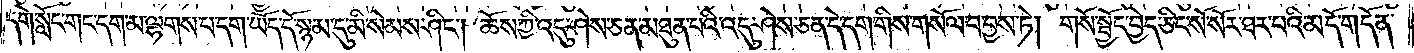དགེ་སློང་གང་དག་མ་ལྷགས་པ་དག་ཡོད་དོ་སྙམ་དུ་མི་སེམས་ཤིང༌། ཆོས་ཀྱི་འདུ་ཤེས་ཅན་མཐུན་པའི་འདུ་ཤེས་ཅན་དེ་དག་གིས་གསོལ་བ་བྱས་ཏེ། གསོ་སྦྱོང་བྱེད་ཅིང་སོ་སོར་ཐར་པའི་མདོ་གདོན་
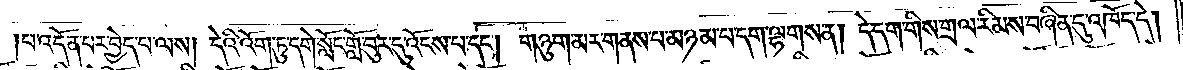པ་འདོན་པར་བྱེད་པ་ལས། དེའི་འོག་ཏུ་དགེ་སློང་གློ་བུར་དུ་འོངས་པ་དང༌། གཉུག་མར་གནས་པ་མཉམ་པ་དག་ལྷགས་ན། དེ་དག་གིས་གྲལ་རིམས་བཞིན་དུ་འཁོད་དེ།
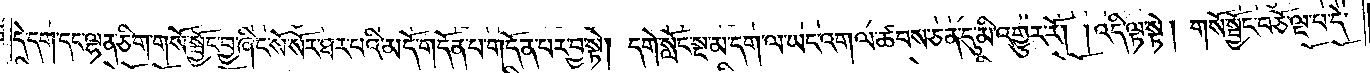དེ་དག་དང་ལྷན་ཅིག་གསོ་སྦྱོང་བྱ་ཞིང་སོ་སོར་ཐར་པའི་མདོ་གདོན་པ་གདོན་པར་བྱ་སྟེ། དགེ་སློང་སྔ་མ་དག་ལ་ཡང་འགལ་ཚབས་ཅན་དུ་མི་འགྱུར་རོ། ། འདི་ལྟ་སྟེ། གསོ་སྦྱོང་བཅོ་ལྔ་པ་དེ་
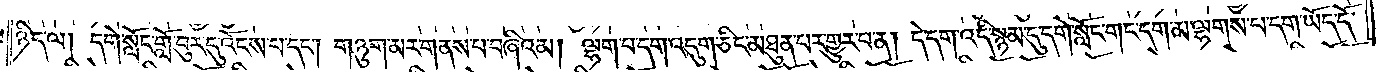ཉིད་ལ། དགེ་སློང་གློ་བུར་དུ་འོངས་པ་དང༌། གཉུག་མར་གནས་པ་བཞིའམ། ལྷག་པ་དག་འདུག་ཅིང་མཐུན་པར་གྱུར་པ་ན། དེ་དག་འདི་སྙམ་དུ་དགེ་སློང་གང་དག་མ་ལྷགས་པ་དག་ཡོད་དོ་
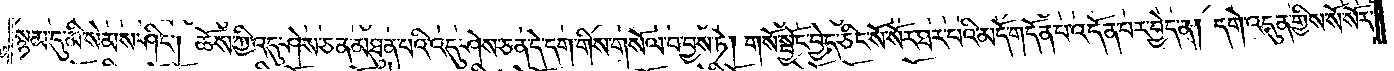སྙམ་དུ་མི་སེམས་ཤིང༌། ཆོས་ཀྱི་འདུ་ཤེས་ཅན་མཐུན་པའི་འདུ་ཤེས་ཅན་དེ་དག་གིས་གསོལ་བ་བྱས་ཏེ། གསོ་སྦྱོང་བྱེད་ཅིང་སོ་སོར་ཐར་པའི་མདོ་གདོན་པ་འདོན་པར་བྱེད་ན། དགེ་འདུན་གྱིས་སོ་སོར་
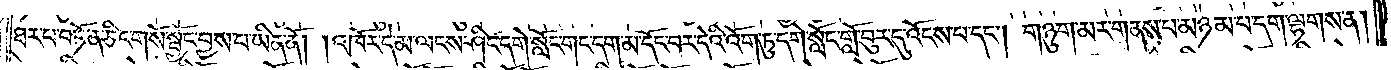ཐར་པ་བཏོན་ཅིང་གསོ་སྦྱོང་བྱས་པ་ཡིན་ནོ། །འཁོར་དེ་མ་ལངས་ཤིང་དགེ་སློང་གང་དག་མ་དོང་བར་དེའི་འོག་ཏུ་དགེ་སློང་གློ་བུར་དུ་འོངས་པ་དང༌། གཉུག་མར་གནས་པ་མཉམ་པ་དག་ལྷགས་ན།
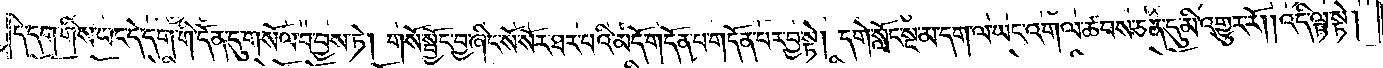དེ་དག་གིས་ཡང་དེ་དག་གི་དོན་དུ་གསོལ་བ་བྱས་ཏེ། གསོ་སྦྱོང་བྱ་ཞིང་སོ་སོར་ཐར་པའི་མདོ་གདོན་པ་གདོན་པར་བྱ་སྟེ། དགེ་སློང་སྔ་མ་དག་ལ་ཡང་འགལ་ཆབས་ཅན་དུ་མི་འགྱུར་རོ། །འདི་ལྟ་སྟེ།
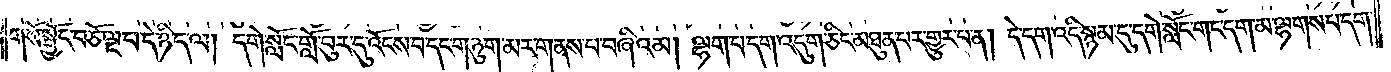གསོ་སྦྱོང་བཅོ་ལྔ་པ་དེ་ཉིད་ལ། དགེ་སློང་གློ་བུར་དུ་འོངས་བ་དང་གཉུག་མར་གནས་པ་བཞིའམ། ལྷག་པ་དག་འདུག་ཅིང་མཐུན་པར་གྱུར་པ་ན། དེ་དག་འདི་སྙམ་དུ་དགེ་སློང་གང་དག་མ་ལྷགས་པ་དག་
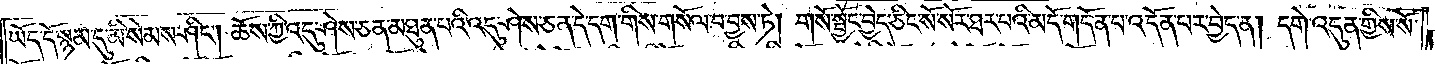ཡོད་དོ་སྙམ་དུ་མི་སེམས་ཤིང༌། ཆོས་ཀྱི་འདུ་ཤེས་ཅན་མཐུན་པའི་འདུ་ཤེས་ཅན་དེ་དག་གིས་གསོལ་བ་བྱས་ཏེ། གསོ་སྦྱོང་བྱེད་ཅིང་སོ་སོར་ཐར་པའི་མདོ་གདོན་པ་འདོན་པར་བྱེད་ན། དགེ་འདུན་གྱིས་སོ་
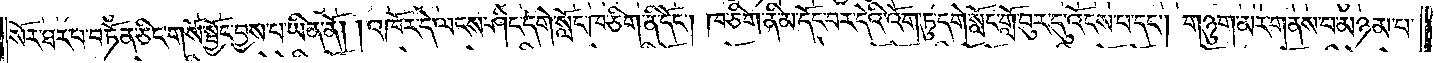སོར་ཐར་པ་བ་ཏོན་ཅིང་གསོ་སྦྱོང་བྱས་པ་ཡིན་ནོ། །འཁོར་དེ་ལངས་ཤིང་དགེ་སློང་ཁ་ཅིག་ནི་དོང༌། ཁ་ཅིག་ནི་མ་དོང་བར་དེའི་འོག་ཏུ་དགེ་སློང་གློ་བུར་དུ་འོངས་པ་དང༌། གཉུག་མར་གནས་པ་མཉམ་པ་
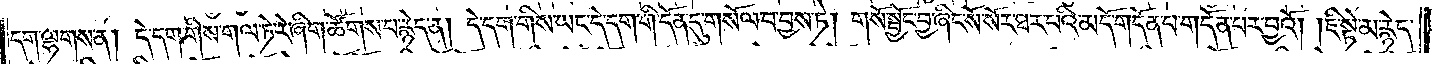དག་ལྷགས་ན། དེ་དག་གིས་གལ་ཏེ་རེ་ཞིག་ཚོགས་པ་རྙེད་ན། དེ་དག་གིས་ཡང་དེ་དག་གི་དོན་དུ་གསོལ་བ་བྱས་ཏེ། གསོ་སྦྱོང་བྱ་ཞིང་སོ་སོར་ཐར་པའི་མདོ་གདོན་བ་གདོན་པར་བྱའོ། །ཇི་སྟེ་མ་རྙེད་
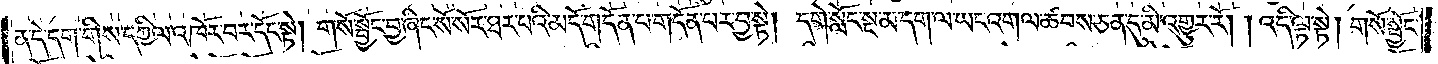ན་དེ་དག་གིས་དཀྱིལ་འཁོར་བར་དོང་སྟེ། གསོ་སྦྱོང་བྱ་ཞིང་སོ་སོར་ཐར་པའི་མདོ་གདོན་པ་གདོན་པར་བྱ་སྟེ། དགེ་སློང་སྔ་མ་དག་ལ་ཡང་འགལ་ཚབས་ཅན་དུ་མི་འགྱུར་རོ། །འདི་ལྟ་སྟེ། གསོ་སྦྱོང་
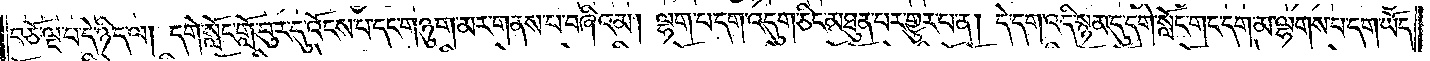བཅོ་ལྔ་པ་དེ་ཉིད་ལ། དགེ་སློང་གློ་བུར་དུ་འོངས་པ་དང་གཉུག་མར་གནས་པ་བཞིའམ། ལྷག་པ་དག་འདུག་ཅིང་མཐུན་པར་གྱུར་པ་ན། དེ་དག་འདི་སྙམ་དུ་དགེ་སློང་གང་དག་མ་ལྷགས་པ་དག་ཡོད་
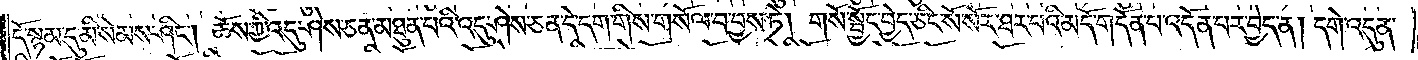དོ་སྙམ་དུ་མི་སེམས་ཤིང༌། ཆོས་ཀྱི་འདུ་ཤེས་ཅན་མཐུན་པའི་འདུ་ཤེས་ཅན་དེ་དག་གིས་གསོལ་བ་བྱས་ཏེ། གསོ་སྦྱོང་བྱེད་ཅིང་སོ་སོར་ཐར་པའི་མདོ་གདོན་པ་འདོན་པར་བྱེད་ན། དགེ་འདུན་
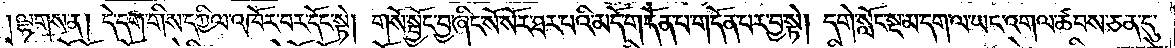།ལྷགས་ན། དེ་དག་གིས་དཀྱིལ་འཁོར་བར་དོང་སྟེ། གསོ་སྦྱོང་བྱ་ཞིང་སོ་སོར་ཐར་པའི་མདོ་གདོན་པ་གདོན་པར་བྱ་སྟེ། དགེ་སློང་སྔ་མ་དག་ལ་ཡང་འགལ་ཚབས་ཅན་དུ་
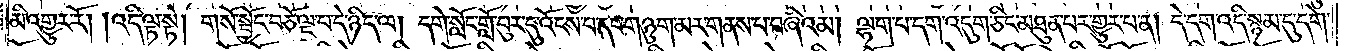མི་འགྱུར་རོ། །འདི་ལྟ་སྟེ། གསོ་སྦྱོང་བཅོ་ལྔ་པ་དེ་ཉིད་ལ། དགེ་སློང་གློ་བུར་དུ་འོངས་པ་དང་གཉུག་མར་གནས་པ་བཞིའམ། ལྷག་པ་དག་འདུག་ཅིང་མཐུན་པར་གྱུར་པ་ན། དེ་དག་འདི་སྙམ་དུ་དགེ་
